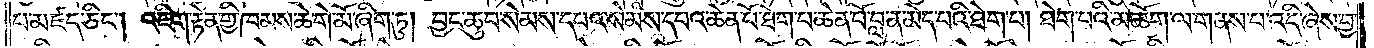པ་མཛད་ཅིང༌། འཇིག་རྟེན་གྱི་ཁམས་ཆེ་གེ་མོ་ཞིག་ཏུ། བྱང་ཆུབ་སེམས་དཔའ་སེམས་དཔའ་ཆེན་པོ་ཐེག་པ་ཆེན་པོ་བླ་ན་མེད་པའི་ཐེག་པ། ཐེག་པའི་མཆོག་ལ་གནས་པ་འདི་ཞེས་བྱ་
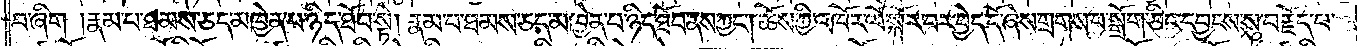བ་ཞིག །རྣམ་པ་ཐམས་ཅད་མཁྱེན་པ་ཉིད་ཐོབ་སྟེ། རྣམ་པ་ཐམས་ཅད་མཁྱེན་པ་ཉིད་ཐོབ་ནས་ཀྱང༌། ཆོས་ཀྱི་འཁོར་ལོ་བསྐོར་བ་བྱེད་དོ་ཞེས་གྲགས་པ་སྒྲོག་ཅིང་དབྱངས་སུ་བརྗོད་པ་
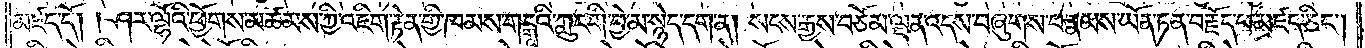མཛད་དོ། །ཤར་ལྷོའི་ཕྱོགས་མཚམས་ཀྱི་འཇིག་རྟེན་གྱི་ཁམས་གངྒཱའི་ཀླུང་གི་བྱེ་མ་སྙེད་དག་ན། སངས་རྒྱས་བཅོམ་ལྡན་འདས་བཞུགས་པ་རྣམས་ཡོན་ཏན་བརྗོད་པ་མཛད་ཅིང༌།
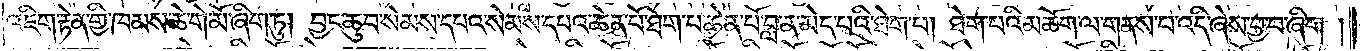འཇིག་རྟེན་གྱི་ཁམས་ཆེ་གེ་མོ་ཞིག་ཏུ། བྱང་ཆུབ་སེམས་དཔའ་སེམས་དཔའ་ཆེན་པོ་ཐེག་པ་ཆེན་པོ་བླ་ན་མེད་པའི་ཐེག་པ། ཐེག་པའི་མཆོག་ལ་གནས་པ་འདི་ཞེས་བྱ་བ་ཞིག།
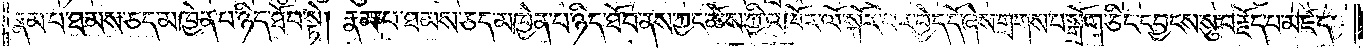རྣམ་པ་ཐམས་ཅད་མཁྱེན་པ་ཉིད་ཐོབ་སྟེ། རྣམ་པ་ཐམས་ཅད་མཁྱེན་པ་ཉིད་ཐོབ་ནས་ཀྱང་ཆོས་ཀྱི་འཁོར་ལོ་སྐོར་བར་བྱེད་དོ་ཞེས་གྲགས་པ་སྒྲོག་ཅིང་དབྱངས་སུ་བརྗོད་པ་མཛད་
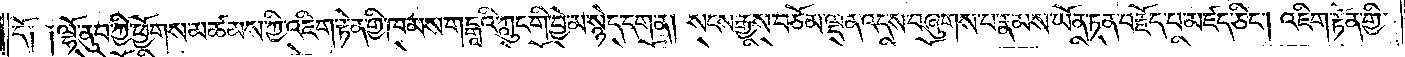དོ༑ ༑ལྷོ་ནུབ་ཀྱི་ཕྱོགས་མཚམས་ཀྱི་འཇིག་རྟེན་གྱི་ཁམས་གངྒཱའི་ཀླུང་གི་བྱེ་མ་སྙེད་དག་ན། སངས་རྒྱས་བཅོམ་ལྡན་འདས་བཞུགས་པ་རྣམས་ཡོན་ཏན་བརྗོད་པ་མཛད་ཅིང༌། འཇིག་རྟེན་གྱི་
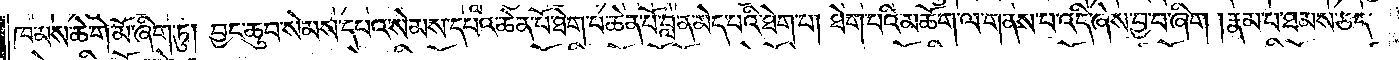ཁམས་ཆེ་གེ་མོ་ཞིག་ཏུ། བྱང་ཆུབ་སེམས་དཔའ་སེམས་དཔའ་ཆེན་པོ་ཐེག་པ་ཆེན་པོ་བླ་ན་མེད་པའི་ཐེག་པ། ཐེག་པའི་མཆོག་ལ་གནས་པ་འདི་ཞེས་བྱ་བ་ཞིག །རྣམ་པ་ཐམས་ཅད་
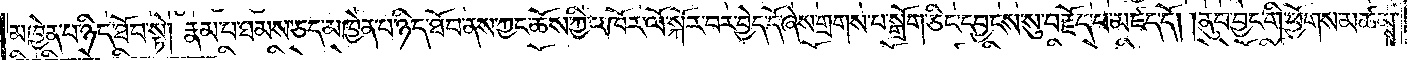མཁྱེན་པ་ཉིད་ཐོབ་སྟེ། རྣམ་པ་ཐམས་ཅད་མཁྱེན་པ་ཉིད་ཐོབ་ནས་ཀྱང་ཆོས་ཀྱི་འཁོར་ལོ་སྐོར་བར་བྱེད་དོ་ཞེས་གྲགས་པ་སྒྲོག་ཅིང་དབྱངས་སུ་བརྗོད་པ་མཛད་དོ། །ནུབ་བྱང་གི་ཕྱོགས་མཚམས་
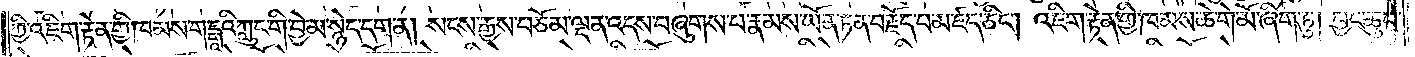ཀྱི་འཇིག་རྟེན་གྱི་ཁམས་གངྒཱའི་ཀླུང་གི་བྱེ་མ་སྙེད་དག་ན། སངས་རྒྱས་བཅོམ་ལྡན་འདས་བཞུགས་པ་རྣམས་ཡོན་ཏན་བརྗོད་པ་མཛད་ཅིང༌། འཇིག་རྟེན་གྱི་ཁམས་ཆེ་གེ་མོ་ཞིག་ཏུ། བྱང་ཆུབ་
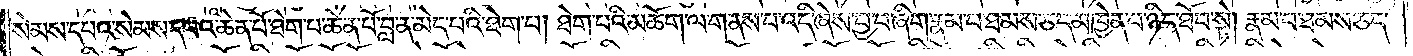སེམས་དཔའ་སེམས་དཔའ་ཆེན་པོ་ཐེག་པ་ཆེན་པོ་བླ་ན་མེད་པའི་ཐེག་པ། ཐེག་པའི་མཆོག་ལ་གནས་པ་འདི་ཞེས་བྱ་བ་ཞིག་རྣམ་པ་ཐམས་ཅད་མཁྱེན་པ་ཉིད་ཐོབ་སྟེ། རྣམ་པ་ཐམས་ཅད་
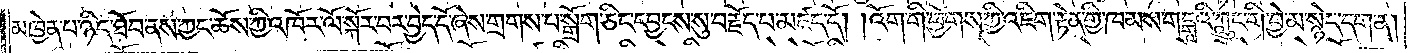མཁྱེན་པ་ཉིད་ཐོབ་ནས་ཀྱང་ཆོས་ཀྱི་འཁོར་ལོ་སྐོར་བ་བྱེད་དོ་ཞེས་གྲགས་པ་སྒྲོག་ཅིང་དབྱངས་སུ་བརྗོད་པ་མཛད་དོ། །འོག་གི་ཕྱོགས་ཀྱི་འཇིག་རྟེན་གྱི་ཁམས་གངྒཱའི་ཀླུང་གི་བྱེ་མ་སྙེད་དག་ན།
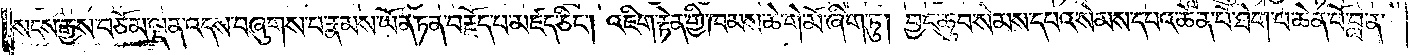སངས་རྒྱས་བཅོམ་ལྡན་འདས་བཞུགས་པ་རྣམས་ཡོན་ཏན་བརྗོད་པ་མཛད་ཅིང༌། འཇིག་རྟེན་གྱི་ཁམས་ཆེ་གེ་མོ་ཞིག་ཏུ། བྱང་ཆུབ་སེམས་དཔའ་སེམས་དཔའ་ཆེན་པོ་ཐེག་པ་ཆེན་པོ་བླ་ན་
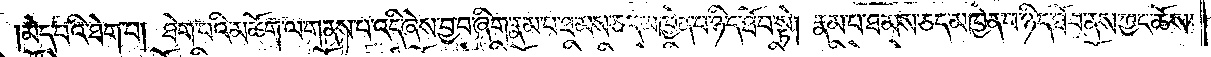མེད་པའི་ཐེག་པ། ཐེག་པའི་མཆོག་ལ་གནས་པ་འདི་ཞེས་བྱ་བ་ཞིག་རྣམ་པ་ཐམས་ཅད་མཁྱེན་པ་ཉིད་ཐོབ་སྟེ། རྣམ་པ་ཐམས་ཅད་མཁྱེན་པ་ཉིད་ཐོབ་ནས་ཀྱང་ཆོས་
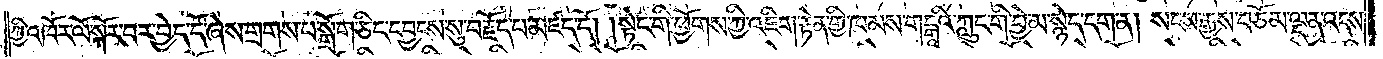ཀྱི་འཁོར་ལོ་སྐོར་བར་བྱེད་དོ་ཞེས་གྲགས་པ་སྒྲོག་ཅིང་དབྱངས་སུ་བརྗོད་པ་མཛད་དོ། །སྟེང་གི་ཕྱོགས་ཀྱི་འཇིག་རྟེན་གྱི་ཁམས་གངྒཱའི་ཀླུང་གི་བྱེ་མ་སྙེད་དག་ན། སངས་རྒྱས་བཅོམ་ལྡན་འདས་
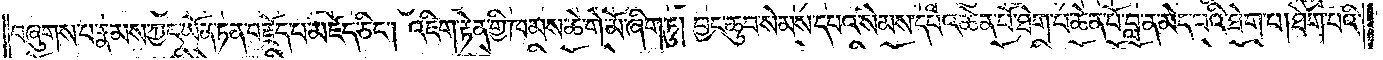བཞུགས་པ་རྣམས་ཀྱང་ཡོན་ཏན་བརྗོད་པ་མཛད་ཅིང༌། འཇིག་རྟེན་གྱི་ཁམས་ཆེ་གེ་མོ་ཞིག་ཏུ། བྱང་ཆུབ་སེམས་དཔའ་སེམས་དཔའ་ཆེན་པོ་ཐེག་པ་ཆེན་པོ་བླ་ན་མེད་པའི་ཐེག་པ། ཐེག་པའི་
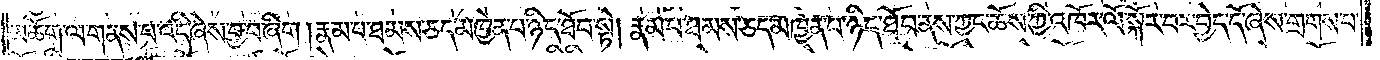མཆོག་ལ་གནས་པ་འདི་ཞེས་བྱ་བ་ཞིག །རྣམ་པ་ཐམས་ཅད་མཁྱེན་པ་ཉིད་ཐོབ་སྟེ། རྣམ་པ་ཐམས་ཅད་མཁྱེན་པ་ཉིད་ཐོབ་ནས་ཀྱང་ཆོས་ཀྱི་འཁོར་ལོ་སྐོར་བར་བྱེད་དོ་ཞེས་གྲགས་པ་
